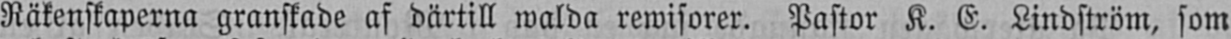Räkenskaperna granskade af därtill walda rewisorer. Pastor K. E. Lindström, som
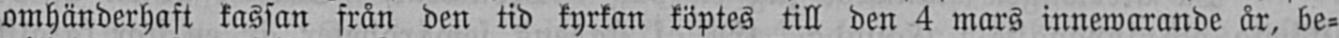omhänderhaft kassan från den tid kyrkan köptes till den 4 mars innewarande år, be-
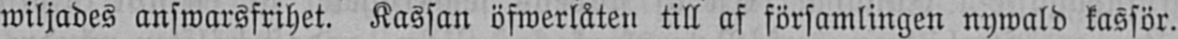wiljades answarsfrihet. Kassan öfwerlåten till af församlingen nywald kassör.
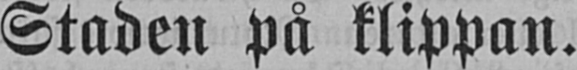Staden på klippan.
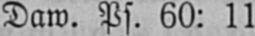Daw. Ps. 60: 11
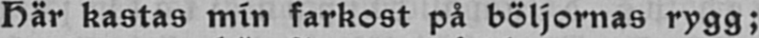Här kastas min farkost på böljornas rygg;
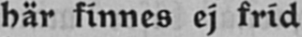här finnes ej frid
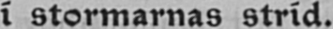i stormarnas strid.
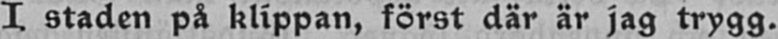I staden på klippan, först där är jag trygg.
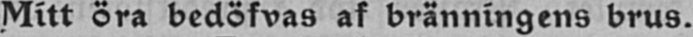Mitt öra bedöfvas af bränningens brus.
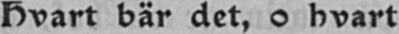Hvart bär det, o hvart
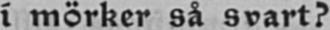i mörker så svart?
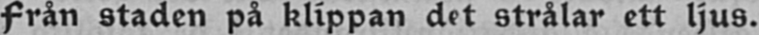Från staden på klippan det strålar ett ljus.
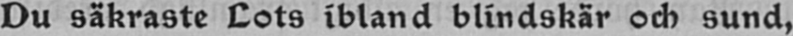Du säkraste Lots ibland blindskär och sund,
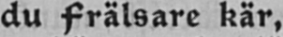du frälsare kär,
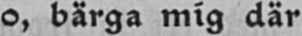o, bärga mig där
